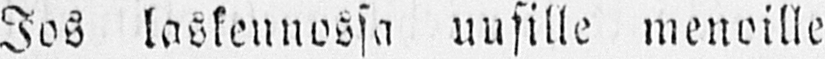Jos laskennossa uusille menoille
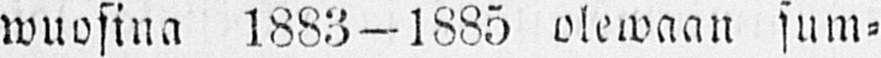wuosina 1883 — 1885 olewaan sum-
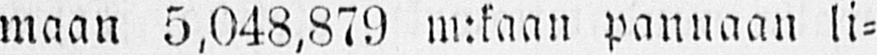maan 5,048,879 m:kaan pannaan li-
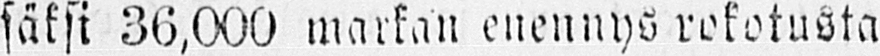säksi 36,000 markan enennys rokotusta
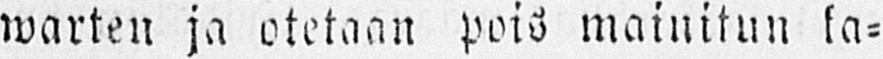warten ja otetaan pois mainitun ka-
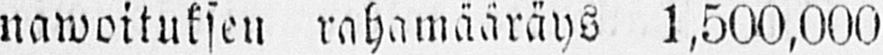nawoituksen rahamääräys 1,500,000
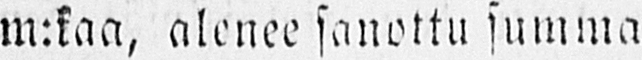m:kaa, alenee sanottu summa
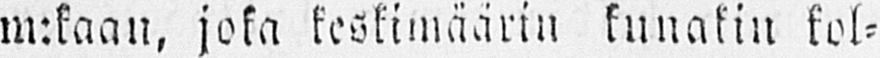m:kaan, joka keskimäärin kunakin kol-
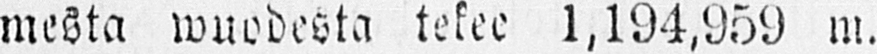mesta wuodesta tekee 1,194,959 m.
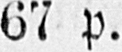607 p.
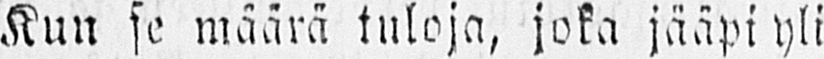Kun se määrä tuloja, joka jääpi yli
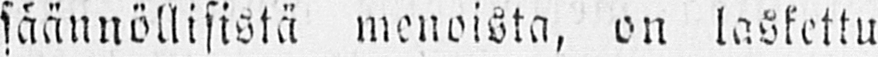säännöllisistä menoista, on laskettu
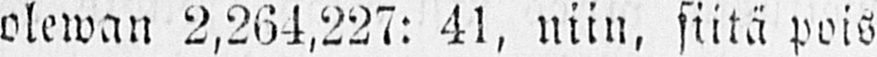olewan 2,264,227: 41, niin, siitä pois
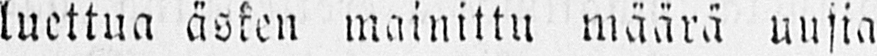luettua äsken mainittu määrä uusia
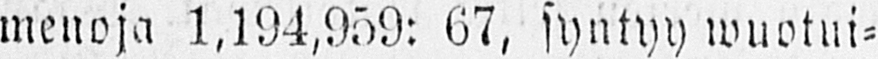menoja 1,194,959: 07, syntyy wuotui-
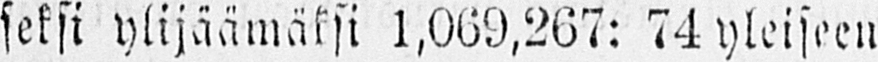seksi ylijäämäksi 1,069,267: 74 yleiseen
